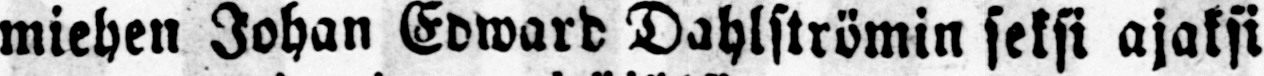miehen Johan Edward Dahlströmin seksi ajaksi
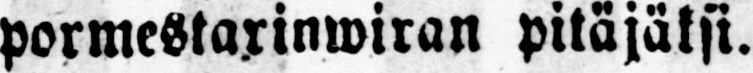pormestarinwiran pitäjäksi.
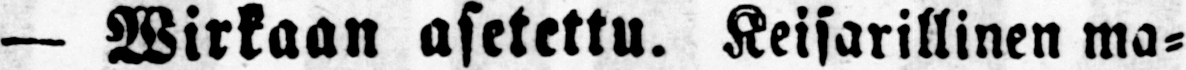— Wirkaan asetettu. Keisarillinen ma-
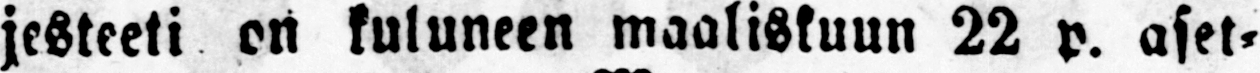jesteeti on kuluneen maaliskuun 22 p. aset-
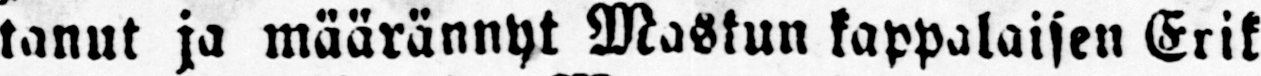tanut ja määrännyt Maskun kappalaisen Erik
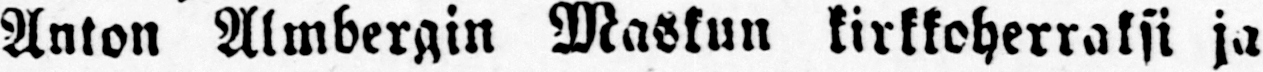Anton Almbergin Maskun kirkkoherraksi ja
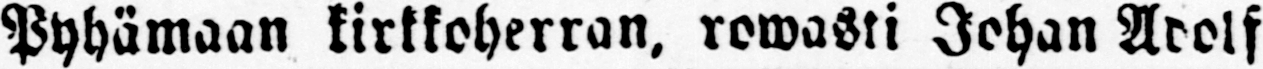Pyhämaan kirkkoherran, rowasti Johan Adolf
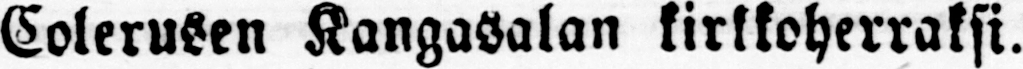Colerusen Kangasalan kirkkoherraksi.
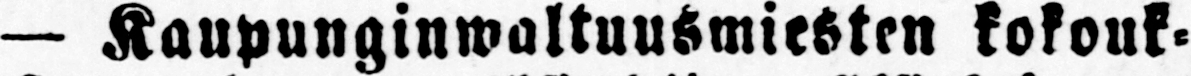— Kaupunginwaltuusmiesten kokouk-
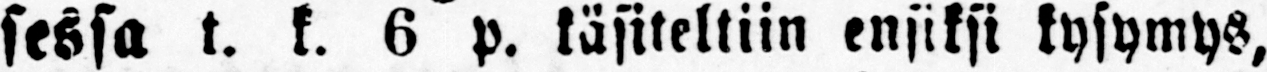sessa t. k. 6 p. käsiteltiin ensiksi kysymys,
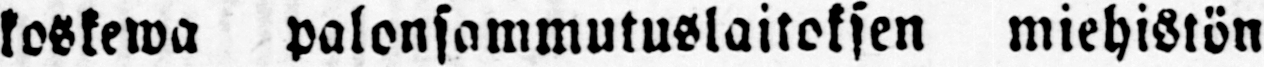koskewa palonsammutuslaitoksen miehistön
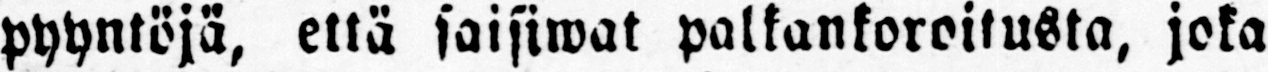pyyntöjä, että saisiwat palkankoroitusta, joka
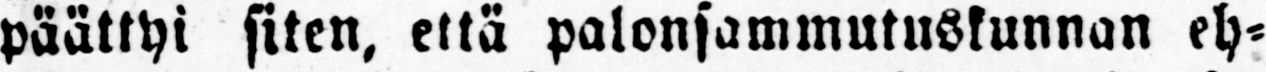päättyi siten, että palonsammutuakunnan eh-
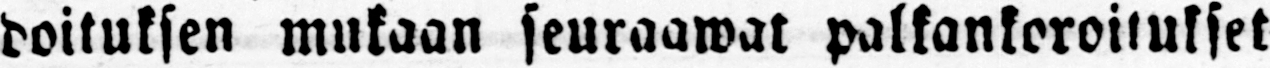doituksen mukaan seuraawat palkankoroitukset
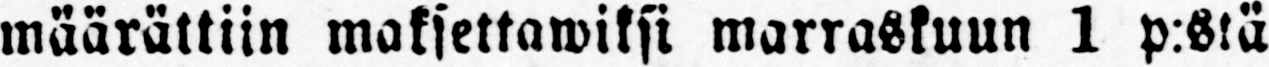määrättiin maksettawiksi marraskuun 1 p:stä
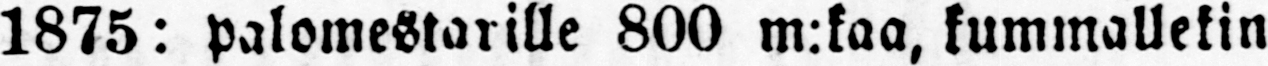1875: palomestarille 800 m:kaa, kummallekin
